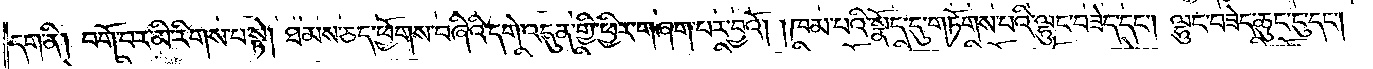དག་ནི། བགོ་བར་མི་རིགས་པ་སྟེ། ཐམས་ཅད་ཕྱོགས་བཞིའི་དགེ་འདུན་གྱི་ཕྱིར་གཞག་པར་བྱའོ། །ཁམ་པའི་སྣོད་དུ་གཏོགས་པའི་ལྷུང་བཟེད་དང༌། ལྷུང་བཟེད་ཆུང་ངུ་དང༌།
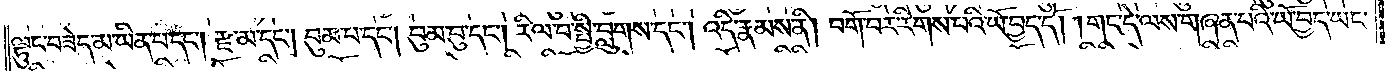ལྷུང་བཟེད་མ་ཡིན་པ་དང༌། རྫ་མ་དང༌། བུམ་པ་དང༌། བུམ་བུ་དང༌། རིལ་བ་སྤྱི་བླུགས་དང༌། འདི་རྣམས་ནི། བགོ་བར་རིགས་པའི་ཡོ་བྱད་དོ། །གང་དེ་ལས་གཞན་པའི་ཡོ་བྱད་ཡང་
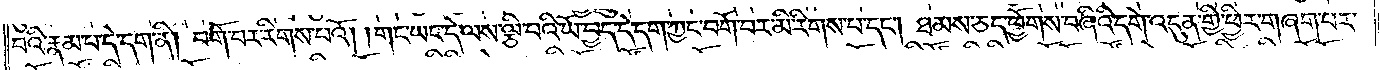བའི་རྣམ་པ་དེ་དག་ནི། བགོ་བར་རིགས་པའོ། །གང་ཡང་དེ་ལས་ལྕི་བའི་ཡོ་བྱད་དེ་དག་ཀྱང་བགོ་བར་མི་རིགས་པ་དང༌། ཐམས་ཅད་ཕྱོགས་བཞིའི་དགེ་འདུན་གྱི་ཕྱིར་གཞག་པར་
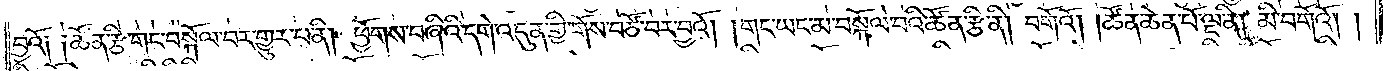བྱའོ༑ ༑ཚོན་རྩི་གང་བསྐོལ་བར་གྱུར་པ་ནི། ཕྱོགས་བཞིའི་དགེ་འདུན་གྱི་གོས་བཙོ་བར་བྱའོ། །གང་ཡང་མ་བསྐོལ་བའི་ཚོན་རྩི་ནི། བགོའོ། །ཚོན་ཆེན་པོ་ལྔ་ནི། མི་བགོའོ། །
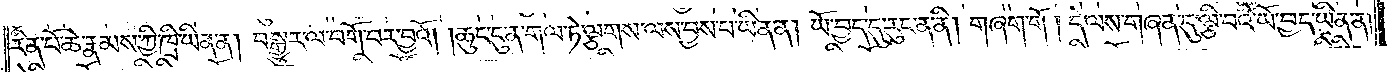རིན་པོ་ཆེ་རྣམས་ཀྱི་ཁྲི་ཡིན་ན། བསྒྱུར་ལ་བགོ་བར་བྱའོ། །ཆུང་ངུ་ན་གལ་ཏེ་ལྕགས་ལས་བྱས་པ་ཡིན་ན། ཡོ་བྱད་དུ་རུང་ན་ནི། གཞག་གོ །དེ་ལས་གཞན་དུ་ལྕི་བའི་ཡོ་བྱད་ཡིན་ན།
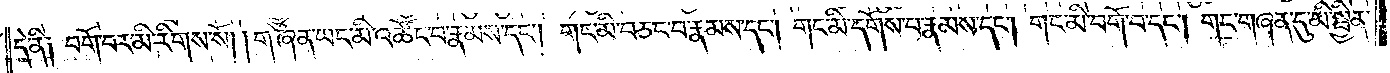དེ་ནི༑ བགོ་བར་མི་རིགས་སོ། གཞན་ཡང་མི་འཚོང་བ་རྣམས་དང༌། གང་མི་བཅང་བ་རྣམས་དང༌། གང་མི་དགོས་པ་རྣམས་དང༌། གང་མི་བགོ་བ་དང༌། གང་གཞན་དུ་མི་སྦྱིན་
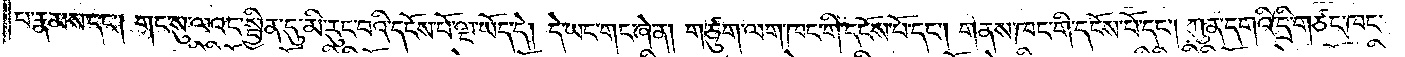པ་རྣམས་དང༌། གང་སུ་ལའང་སྦྱིན་དུ་མི་རུང་བའི་དངོས་པོ་ལྔ་ཡོད་དེ། དེ་ཡང་གང་ཞེ་ན། གཙུག་ལག་ཁང་གི་དངོས་པོ་དང༌། གནས་ཁང་གི་དངོས་པོ་དང༌། ཀུན་དགའི་དྲི་གཙང་ཁང་
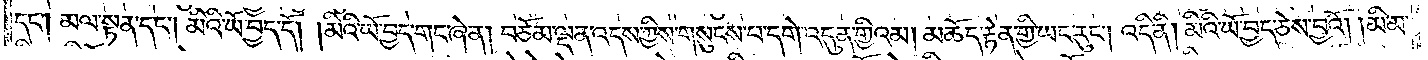དང༌། མལ་སྟན་དང༌། མིའི་ཡོ་བྱེད་དོ། །མིའི་ཡོ་བྱད་གང་ཞེ་ན། བཅོམ་ལྡན་འདས་ཀྱིས་གསུངས་པ་དགེ་འདུན་གྱིའམ། མཆོད་རྟེན་གྱི་ཡང་རུང༌། འདི་ནི། མིའི་ཡོ་བྱད་ཅེས་བྱའོ། །མི་མ་
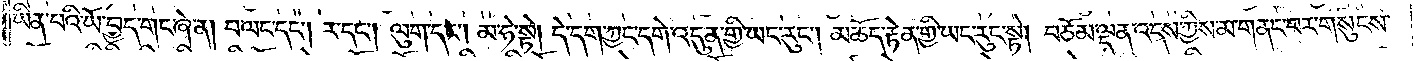ཡིན་པའི་ཡོ་བྱད་གང་ཞེ་ན། བ་ལང་དང༌། ར་དང༌། ལུག་དང༌། མ་ཧེ་སྟེ། དེ་དག་ཀྱང་དགེ་འདུན་གྱི་ཡང་རུང༌། མཆོད་རྟེན་གྱི་ཡང་རུང་སྟེ། བཅོམ་ལྡན་འདས་ཀྱིས་མ་གནང་བར་གསུངས་
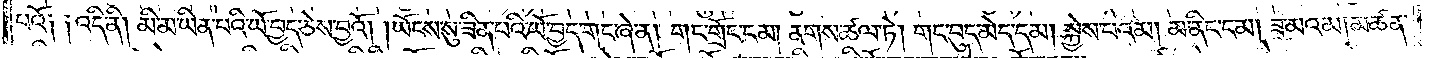པའོ༑ ༑འདི་ནི། མི་མ་ཡིན་པའི་ཡོ་བྱད་ཅེས་བྱའོ། །ཡོངས་སུ་ཟིན་པའི་ཡོ་བྱད་གང་ཞེ་ན། གང་གྲོང་ངམ། ནགས་ཚལ་ཏེ། གང་བུད་མེད་དམ། སྐྱེས་པའམ། མ་ནིང་ངམ། ཟ་མའམ། མཚན་
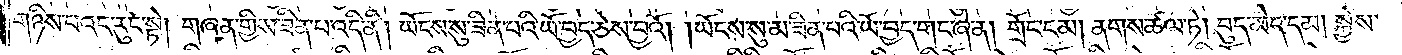གཉིས་པའང་རུང་སྟེ། གཞན་གྱིས་ཟིན་པ་འདི་ནི། ཡོངས་སུ་ཟིན་པའི་ཡོ་བྱད་ཅེས་བྱའོ། །ཡོངས་སུ་མ་ཟིན་པའི་ཡོ་བྱད་གང་ཞེ་ན། གྲོང་ངམ། ནགས་ཚལ་ཏེ། བུད་མེད་དམ། སྐྱེས་
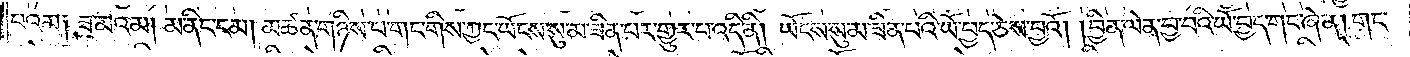པའམ༑ ཟ་མའམ། མ་ནིང་ངམ། མཚན་གཉིས་པ་གང་གིས་ཀྱང་ཡོངས་སུ་མ་ཟིན་པར་གྱུར་པ་འདི་ནི། ཡོངས་སུ་མ་ཟིན་པའི་ཡོ་བྱད་ཅེས་བྱའོ། །བྱིན་ལེན་བྱ་བའི་ཡོ་བྱད་གང་ཞེ་ན། གང་
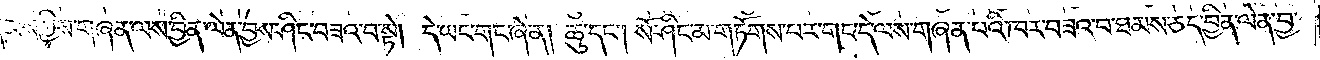དགེ་སློང་རྣམས་ཀྱིས་གཞན་ལས་བྱིན་ལེན་བྱས་ཤིང་བཟའ་བ་སྟེ། དེ་ཡང་གང་ཞེ་ན། ཆུ་དང༌། སོ་ཤིང་མ་གཏོགས་པར་གང་དེ་ལས་གཞན་པའི་ཁར་བཟའ་བ་ཐམས་ཅད་བྱིན་ལེན་བྱ་
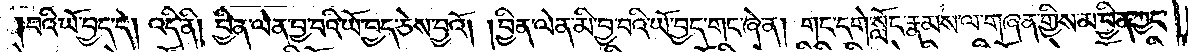བའི་ཡོ་བྱད་དེ། འདི་ནི། བྱིན་ལེན་བྱ་བའི་ཡོ་བྱད་ཅེས་བྱའོ། །བྱིན་ལེན་མི་བྱ་བའི་ཡོ་བྱད་གང་ཞེ་ན། གང་དགེ་སློང་རྣམས་ལ་གཞན་གྱིས་མ་བྱིན་ཀྱང་
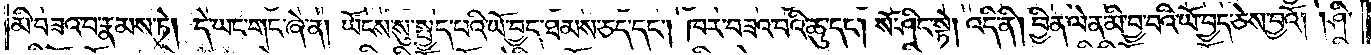མི་བཟའ་བ་རྣམས་ཏེ། དེ་ཡང་གང་ཞེ་ན། ཡོངས་སུ་སྤྱད་པའི་ཡོ་བྱད་ཐམས་ཅད་དང༌། ཁར་བཟའ་བའི་ཆུ་དང༌། སོ་ཤིང་སྟེ། འདི་ནི། བྱིན་ལེན་མི་བྱ་བའི་ཡོ་བྱད་ཅེས་བྱའོ། །ཤི་
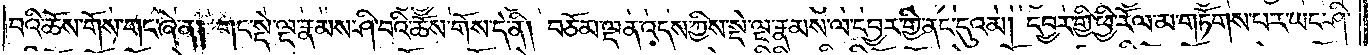བའི་ཆོས་གོས་གང་ཞེ་ན། གང་སྡེ་ལྔ་རྣམས་ཤི་བའི་ཆོས་གོས་དེ་ནི། བཅོམ་ལྡན་འདས་ཀྱིས་སྡེ་ལྔ་རྣམས་ལ་དབྱར་གྱི་ནང་དུའམ། དབྱར་གྱི་ཕྱི་རོལ་མ་གཏོགས་པར་ཡང་ཤི་
